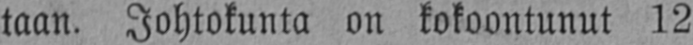taan. Johtokunta on kokoontunut 12
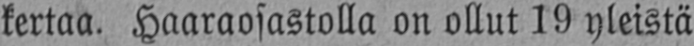kertaa. Haaraosastolla on ollut 19 yleistä
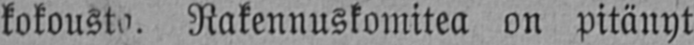kokousta. Rakennuskomitea on pitänyt
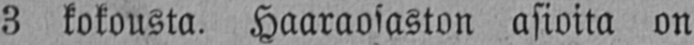3 kokousta. Haaraosaston asioita on
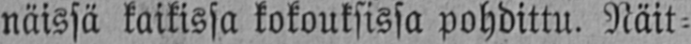näissä kaikissa kokouksissa pohdittu. Näit-
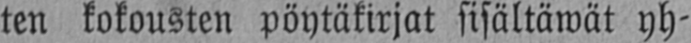ten kokousten pöytäkirjat sisältäwät yh-
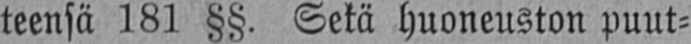teensä 181 §§. Sekä huoneuston puut-
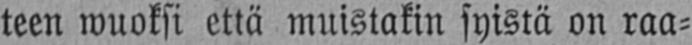teen wuoksi että muistakin syistä on raa-
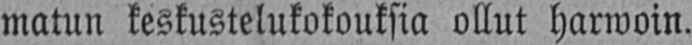matun keskustelukokouksia ollut harwoin.
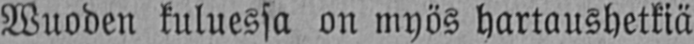Wuoden kuluessa on myös hartaushetkiä
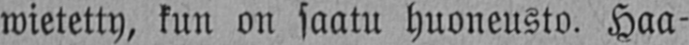wietetty, kun on saatu huoneusto. Haa-
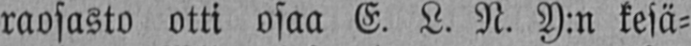raosasto otti osaa E. L. N. Y:n kesä-
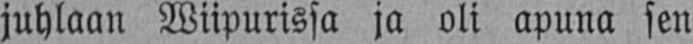juhlaan Wiipurissa ja oli apuna sen
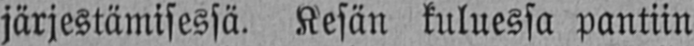järjestämisessä. Kesän kuluessa pantiin
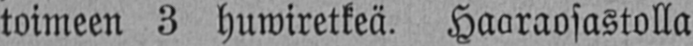toimeen 3 huwiretkeä. Haaraosastolla
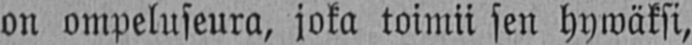on ompeluseura, joka toimii sen hywäksi,
